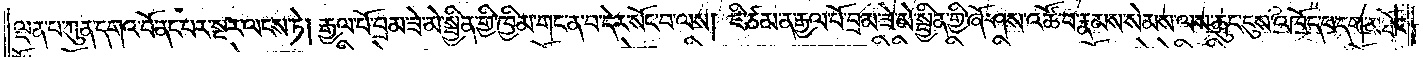ལྡན་པ་ཀུན་དགའ་བོ་ནང་པར་སྔར་ལངས་ཏེ། རྒྱལ་པོ་བྲམ་ཟེ་མེ་སྦྱིན་གྱི་ཁྱིམ་གང་ན་བ་དེར་སོང་བ་ལས། ཇི་ཙམ་ན་རྒྱལ་པོ་བྲམ་ཟེ་མེ་སྦྱིན་གྱི་ཞོ་ཤས་འཚོ་བ་རྣམས་སེམས་ལས་ཆུང་ངུས་འཁོད་པ་དག་མཐོང་
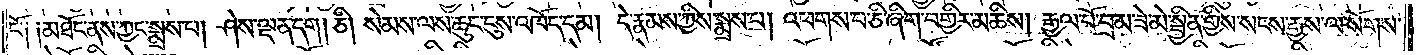ངོ༑ ༑མཐོང་ནས་ཀྱང་སྨྲས་པ། ཤེས་ལྡན་དག །ཅི། སེམས་ལས་ཆུང་ངུས་འཁོད་དམ། དེ་རྣམས་ཀྱིས་སྨྲས་པ། འཕགས་པ་ཅི་ཞིག་བགྱིར་མཆིས། རྒྱལ་པོ་བྲམ་ཟེ་མེ་སྦྱིན་གྱིས་སངས་རྒྱས་ལ་སོགས་
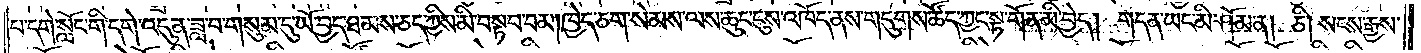པ་དགེ་སློང་གི་དགེ་འདུན་ཟླ་བ་གསུམ་དུ་ཡོ་བྱད་ཐམས་ཅད་ཀྱིས་མི་བསྟབ་བམ། ཁྱེད་ཅག་སེམས་ལས་ཆུང་ངུས་འཁོད་ནས་གདུགས་ཚོད་ཀྱང་སྟ་གོན་མི་བྱེད། གདན་ཡང་མི་ཤོམ་ན། ཅི། སངས་རྒྱས་
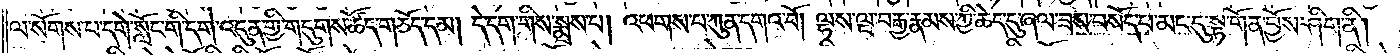ལ་སོགས་པ་དགེ་སློང་གི་དགེ་འདུན་གྱི་གདུགས་ཚོད་གཅོད་དམ། དེ་དག་གིས་སྨྲས་པ། འཕགས་པ་ཀུན་དགའ་བོ། ལྷས་ལྔ་བརྒྱ་རྣམས་ཀྱི་ཆེད་དུ་ཞལ་ཟས་བསོད་པ་མང་དུ་སྟ་གོན་བྱོས་ཤིག་ནི།
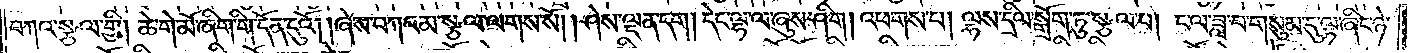བཀའ་སྩལ་གྱི། ཆེ་གེ་མོ་ཞིག་གི་དོན་དུའོ། །ཞེས་བཀའ་མ་སྩལ་ལགས་སོ། །ཤེས་ལྡན་དག། དེང་ལྷ་ལ་ཞུས་ཤིག །འཕགས་པ། ལྷས་དྲིལ་སྒྲོག་ཏུ་སྩལ་པ། ད་ལ་ཟླ་བ་གསུམ་དུ་ལྟ་ཞིང་ཉེ་
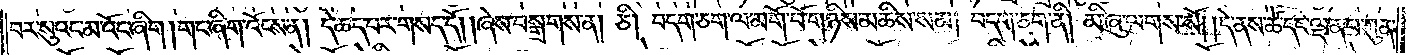བར་སུའང་མ་འོང་ཞིག །གང་ཞིག་འོངས་ན། དེ་ཆད་པར་གསད་དོ། །ཞེས་བསྒྲགས་ན། ཅི། བདག་ཅག་ལ་མགོ་བོ་གཉིས་མཆིས་སམ། བདག་ཅག་ནི། མི་ཞུ་ལགས་སོ། །དེ་ནས་ཚེ་དང་ལྡན་པ་ཀུན་
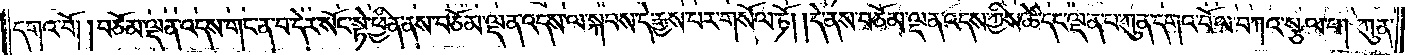དགའ་བོ། །བཅོམ་ལྡན་འདས་གང་ན་བ་དེར་སོང་སྟེ་ཕྱིན་ནས་བཅོམ་ལྡན་འདས་ལ་སྐབས་དེ་རྒྱལ་པར་གསོལ་ཏོ། །དེ་ནས་བཅོམ་ལྡན་འདས་ཀྱིས་ཚེ་དང་ལྡན་པ་ཀུན་དགའ་བོ་ལ་བཀའ་སྩལ་པ། ཀུན་
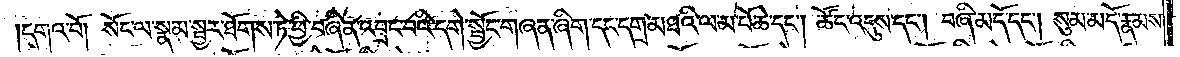དགའ་བོ། སོང་ལ་སྣམ་སྦྱར་ཐོགས་ཏེ་ཕྱི་བཞིན་འབྲང་བའི་དགེ་སྦྱོང་གཞན་ཞིག་དང་དགྲ་མཐའི་ལམ་པོ་ཆེ་དང༌། ཚོང་འདུས་དང༌། བཞི་མདོ་དང༌། སུམ་མདོ་རྣམས་
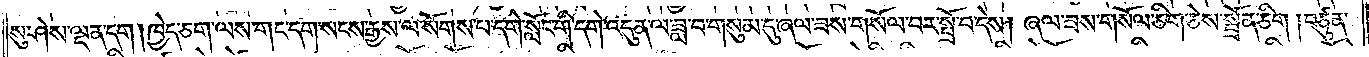སུ་ཤེས་ལྡན་དག །ཁྱེད་ཅག་ལས་གང་དག་སངས་རྒྱས་ལ་སོགས་པ་དགེ་སློང་གི་དགེ་འདུན་ལ་ཟླ་བ་གསུམ་དུ་ཞལ་ཟས་གསོལ་བར་སྤྲོ་བ་དེས། ཞལ་ཟས་གསོལ་ཅིག་ཅེས་སྦྲོན་ཅིག །བཙུན་
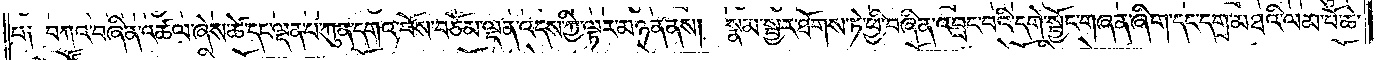པ། བཀའ་བཞིན་འཚལ་ཞེས་ཚེ་དང་ལྡན་པ་ཀུན་དགའ་བོས་བཅོམ་ལྡན་འདས་ཀྱི་ལྟར་མཉན་ནས། སྣམ་སྦྱར་ཐོགས་ཏེ་ཕྱི་བཞིན་འབྲང་བའི་དགེ་སྦྱོང་གཞན་ཞིག་དང་དགྲ་མཐའི་ལམ་པོ་ཆེ་
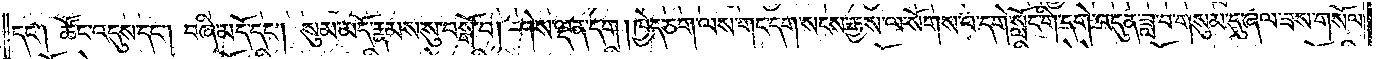དང༌། ཚོང་འདུས་དང༌། བཞི་མདོ་དང༌། སུམ་མདོ་རྣམས་སུ་བསྒོ་བ། ཤེས་ལྡན་དག །ཁྱེད་ཅག་ལས་གང་དག་སངས་རྒྱས་ལ་སོགས་པ་དགེ་སློང་གི་དགེ་འདུན་ཟླ་བ་གསུམ་དུ་ཞལ་ཟས་གསོལ་
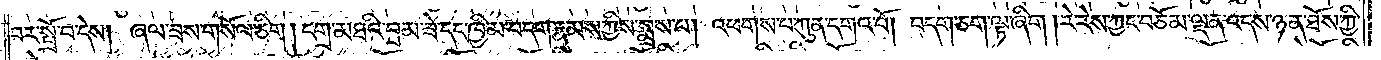བར་སྤྲོ་བ་དེས། ཞལ་ཟས་གསོལ་ཅིག །དགྲ་མཐའི་བྲམ་ཟེ་དང་ཁྱིམ་བདག་རྣམས་ཀྱིས་སྨྲས་པ། འཕགས་པ་ཀུན་དགའ་བོ། བདག་ཅག་ལྟ་ཞིག །རེ་རེས་ཀྱང་བཅོམ་ལྡན་འདས་ཉན་ཐོས་ཀྱི་
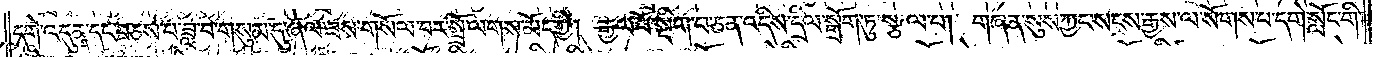དགེ་འདུན་དང་བཅས་པ་ཟླ་བ་གསུམ་དུ་ཞལ་ཟས་གསོལ་བར་སྤྲོ་ལགས་མོད་ཀྱི། རྒྱལ་པོ་སྡིག་པ་ཅན་འདིས་དྲིལ་སྒྲོག་ཏུ་སྩལ་པ། གཞན་སུས་ཀྱང་སངས་རྒྱས་ལ་སོགས་པ་དགེ་སློང་གི་
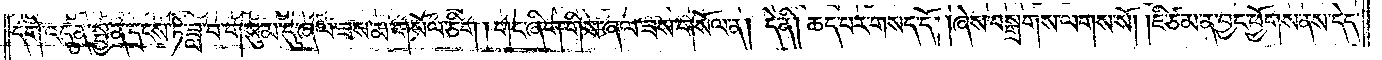དགེ་འདུན་སྤྱན་དྲངས་ཏེ་ཟླ་བ་གསུམ་དུ་ཞལ་ཟས་མ་གསོལ་ཅིག །གང་ཞིག་གིས་ཞལ་ཟས་གསོལ་ན། དེ་ནི། ཆད་པར་གསད་དོ། །ཞེས་བསྒྲགས་ལགས་སོ། །ཇི་ཙམ་ན་བྱང་ཕྱོགས་ནས་དེད་
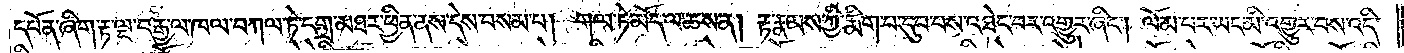དཔོན་ཞིག་རྟ་ལྔ་བརྒྱ་ལ་ཁལ་བཀལ་ཏེ་དགྲ་མཐར་ཕྱིན་ནས་དེས་བསམ་པ། གལ་ཏེ་མོད་ལ་ཆས་ན། རྟ་རྣམས་ཀྱི་རྨིག་པ་དུབ་པས་འཐེང་བར་འགྱུར་ཞིང༌། ལོམ་པར་ཡང་མི་འགྱུར་བས་འདི་
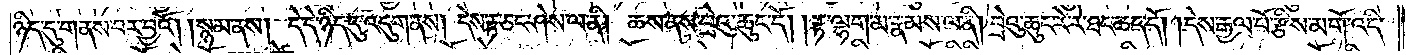ཉིད་དུ་གནས་པར་བྱའོ། །སྙམ་ནས། དེ་དེ་ཉིད་དུ་འདུག་ནས། དེས་རྟ་ཅང་ཤེས་ལ་ནི། ཆས་ནས་བྲེའུ་ཆུང་དོ། །རྟ་ལྷག་མ་རྣམས་ལ་ནི། བྲེའུ་ཆུང་རེ་རེ་ཐང་ཆད་དོ། །དེས་རྒྱལ་པོ་རྩིས་མགོ་འདི་
